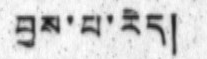བྱས་པ་རེད།
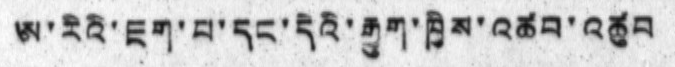ཨ་རིའི་ཇག་པ་དང་དེའི་རྒྱུག་ཁྱིས་འཚབ་འཚུབ
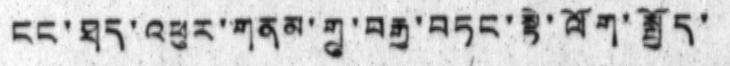ངང་ཐད་འཕུར་གནམ་གྲུ་བརྒྱ་བཏང་སྟེ་ལོག་སྤྱོད་
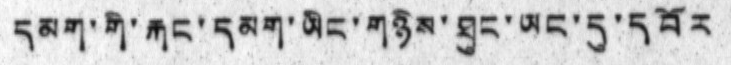དམག་གི་རྐང་དམག་ཡིང་གཉིས་ཐུང་ཡང་དུ་དབོར
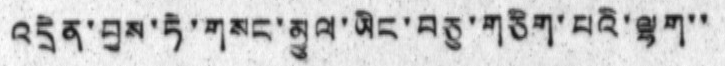འདྲེན་བྱས་ཏེ་གསང་མྱུལ་ཡིང་བཅུ་གཅིག་པའི་ལྷག་་
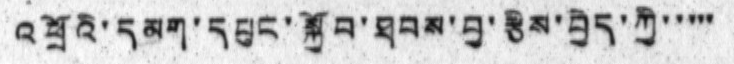འཕྲོའི་དམག་དཔུང་སྐྱོབ་ཐབས་བྱ་རྩིས་བྱེད་ཀྱི་་་་་
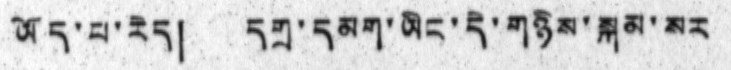ཡོད་པ་རེད། དགྲ་དམག་ཡིང་དེ་གཉིས་སྐམ་སར
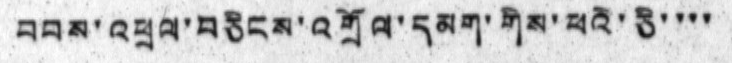བབས་འཕྲལ་བཅིངས་འགྲོལ་དམག་གིས་ཕའི་ཅི་་་་
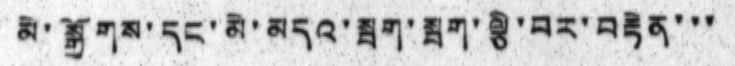མེ་སྒྱོགས་དང་མེ་མདའ་སྦག་སྦག་ལྕེ་བར་བརྟེན་་་
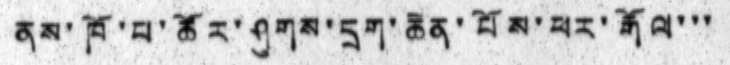ནས་ཁོ་པ་ཚོར་ཤུགས་དྲག་ཆེན་པོས་ཕར་རྒོལ་་་
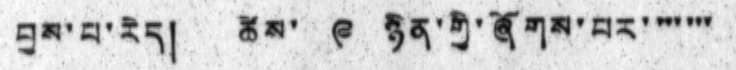བྱས་པ་རེད། ཚེས་ ༩ ཉིན་གྱི་ཞོགས་པར་ ་་་་་་
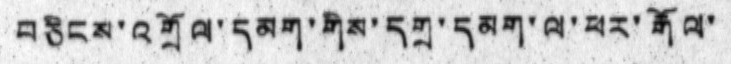བཅིངས་འགྲོལ་དམག་གིས་དགྲ་དམག་ལ་ཕར་རྒོལ་
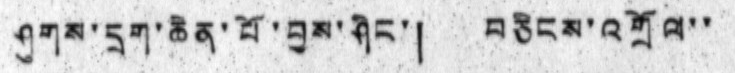ཤུགས་དྲག་ཆེན་པོ་བྱས་ཤིང་། བཅིངས་འགྲོལ་་
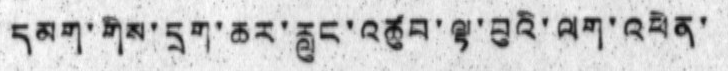དམག་གིས་དྲག་ཆར་རླུང་འཚུབ་ལྟ་བུའི་ལག་འཕེན་
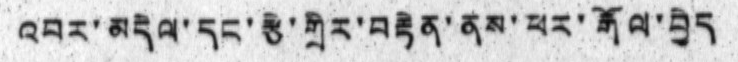འབར་མདེལ་དང་རྩེ་གྲིར་བརྟེན་ནས་ཕར་རྒོལ་བྱེད
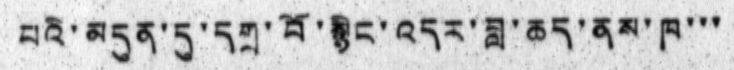པའི་མདུན་དུ་དགྲ་བོ་སྙིང་འདར་བླ་ཆད་ནས་ཁ་་་
